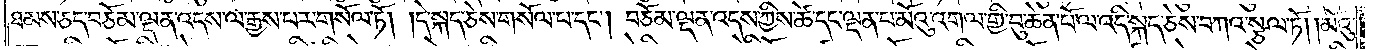ཐམས་ཅད་བཅོམ་ལྡན་འདས་ལ་རྒྱས་པར་གསོལ་ཏོ། །དེ་སྐད་ཅེས་གསོལ་པ་དང༌། བཅོམ་ལྡན་འདས་ཀྱིས་ཚེ་དང་ལྡན་པ་མོའུ་འགལ་གྱི་བུ་ཆེན་པོ་ལ་འདི་སྐད་ཅེས་བཀའ་སྩལ་ཏོ། །མོའུ་
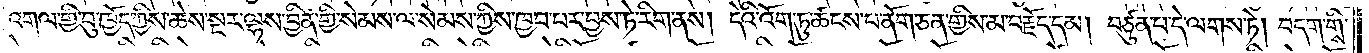འགལ་གྱི་བུ་ཁྱོད་ཀྱིས་ཆེས་སྔར་ལྷས་བྱིན་གྱི་སེམས་ལ་སེམས་ཀྱིས་ཁྱབ་པར་བྱས་ཏེ་རིག་ནས། དེའི་འོག་ཏུ་ཚངས་པ་ནོག་ཅན་གྱིས་མ་བརྗོད་དམ། བཙུན་པ་དེ་ལགས་ཏེ། བདག་གིས་
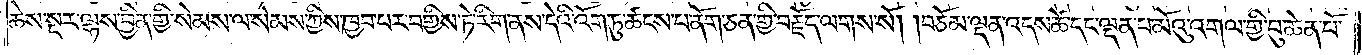ཆེས་སྔར་ལྷས་བྱིན་གྱི་སེམས་ལ་སེམས་ཀྱིས་ཁྱབ་པར་བགྱིས་ཏེ་རིག་ནས་དེའི་འོག་ཏུ་ཚངས་པ་ནོག་ཅན་གྱི་བརྗོད་ལགས་སོ། །བཅོམ་ལྡན་འདས་ཚེ་དང་ལྡན་པ་མོའུ་འགལ་གྱི་བུ་ཆེན་པོ་
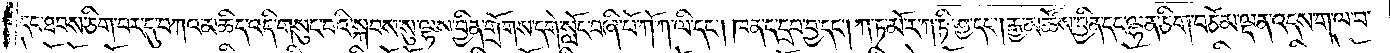དང་ཐབས་ཅིག་བར་དུ་བཀའ་མཆིད་འདི་གསུང་བའི་སྐབས་སུ་ལྷས་བྱིན་གྲོགས་དགེ་སློང་བཞི་པོ་ཀོ་ཀ་ལི་དང༌། ཁན་ད་དྲབ་བྱ་དང༌། ཀ་ཏ་མོ་ར་ཀ་ཏི་ཤྱ་དང༌། རྒྱ་མཚོས་བྱིན་དང་ལྷན་ཅིག་བཅོམ་ལྡན་འདས་ག་ལ་བ་
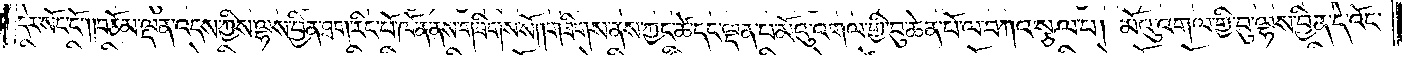དེར་སོང་ངོ༌། །བཅོམ་ལྡན་འདས་ཀྱིས་ལྷས་བྱིན་ཐག་རིང་པོ་ཁོ་ན་ནས་གཟིགས་སོ། །གཟིགས་ནས་ཀྱང་ཚེ་དང་ལྡན་པ་མོའུ་འགལ་གྱི་བུ་ཆེན་པོ་ལ་བཀའ་སྩལ་པ། མོའུ་འགལ་གྱི་བུ་ལྷས་བྱིན་དེ་འོང་
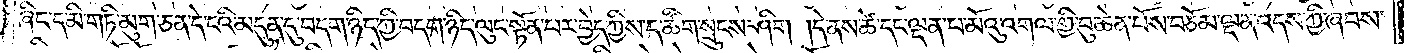ཞིང་ད་མི་གཏི་མུག་ཅན་དེ་ངའི་མདུན་དུ་བདག་ཉིད་ཀྱི་བདག་ཉིད་ལུང་སྟོན་པར་བྱེད་ཀྱིས་ད་ཚིག་སྲུངས་ཤིག །དེ་ནས་ཚེ་དང་ལྡན་པ་མོའུ་འགལ་གྱི་བུ་ཆེན་པོས་བཅོམ་ལྡན་འདས་ཀྱི་ཞབས་
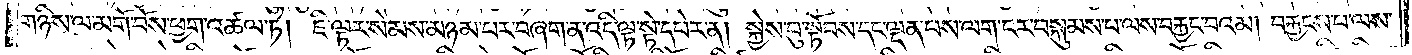གཉིས་ལ་མགོ་བོས་ཕྱག་འཚལ་ཏེ། ཇི་ལྟར་སེམས་མཉམ་པར་བཞག་ན་འདི་ལྟ་སྟེ་དཔེར་ན། སྐྱེས་བུ་སྟོབས་དང་ལྡན་པས་ལག་ངར་བསྐུམས་པ་ལས་བརྐྱང་བའམ། བརྐྱངས་པ་ལས་
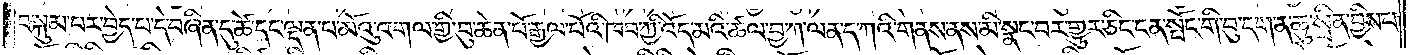བསྐུམ་པར་བྱེད་པ་དེ་བཞིན་དུ་ཚེ་དང་ལྡན་པ་མོའུ་འགལ་གྱི་བུ་ཆེན་པོ་རྒྱལ་པོའི་ཁབ་ཀྱི་འོད་མའི་ཚལ་བྱ་ཀ་ལན་ད་ཀའི་གནས་ནས་མི་སྣང་བར་གྱུར་ཅིང་ངན་སྤོང་གི་བུ་དག་ན་ཆུ་སྲིན་བྱིས་པ་
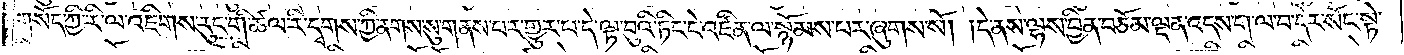གསོད་ཀྱི་རི་ལ་འཇིགས་རུང་གི་ཚལ་རི་དྭགས་ཀྱི་ནགས་སུ་གནས་པར་གྱུར་པ་དེ་ལྟ་བུའི་ཏིང་ངེ་འཛིན་ལ་སྙོམས་པར་ཞུགས་སོ། །དེ་ནས་ལྷས་བྱིན་བཅོམ་ལྡན་འདས་ག་ལ་བ་དེར་སོང་སྟེ་
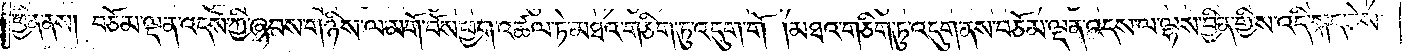ཕྱིན་ནས། བཅོམ་ལྡན་འདས་ཀྱི་ཞབས་གཉིས་ལ་མགོ་བོས་ཕྱག་འཚལ་ཏེ་མཐའ་གཅིག་ཏུ་འདུག་གོ །མཐའ་གཅིག་ཏུ་འདུག་ནས་བཅོམ་ལྡན་འདས་ལ་ལྷས་བྱིན་གྱིས་འདི་སྐད་ཅེས་
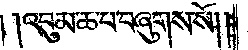འབུམ་ཆ་པ་བཞུགས་སོ༎
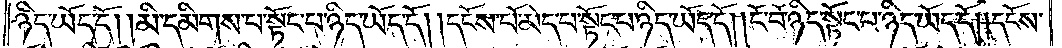ཉིད་ཡོད་དོ། །མི་དམིགས་པ་སྟོང་པ་ཉིད་ཡོད་དོ། །དངོས་པོ་མེད་པ་སྟོང་པ་ཉིད་ཡོད་དོ། །ངོ་བོ་ཉིད་སྟོང་པ་ཉིད་ཡོད་དོ། །དངོས་
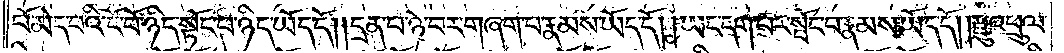པོ་མེད་པའི་ངོ་བོ་ཉིད་སྟོང་པ་ཉིད་ཡོད་དོ། །དྲན་པ་ཉེ་བར་གཞག་པ་རྣམས་ཡོད་དོ། །ཡང་དག་པར་སྤོང་བ་རྣམས་ཡོད་དོ། །རྫུ་འཕྲུལ་
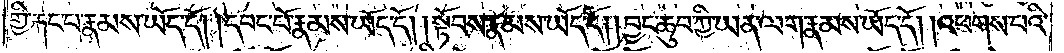གྱི་རྐང་པ་རྣམས་ཡོད་དོ། །དབང་པོ་རྣམས་ཡོད་དོ། །སྟོབས་རྣམས་ཡོད་དོ། །བྱང་ཆུབ་ཀྱི་ཡན་ལག་རྣམས་ཡོད་དོ། །འཕགས་པའི་
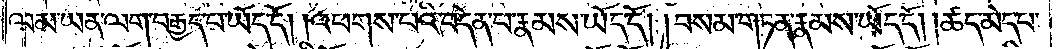ལམ་ཡན་ལག་བརྒྱད་པ་ཡོད་དོ། །འཕགས་པའི་བདེན་པ་རྣམས་ཡོད་དོ། །བསམ་གཏན་རྣམས་ཡོད་དོ། །ཚད་མེད་པ་
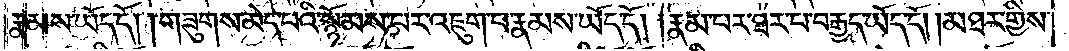རྣམས་ཡོད་དོ། །གཟུགས་མེད་པའི་སྙོམས་པར་འཇུག་པ་རྣམས་ཡོད་དོ། །རྣམ་པར་ཐར་པ་བརྒྱད་ཡོད་དོ། །མཐར་གྱིས་
